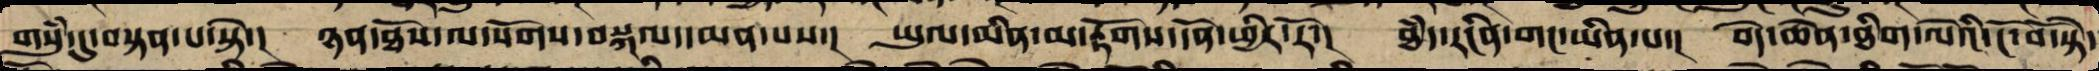གསུཾ་དུ་བསྟན་པ་སྟེ་། ཉན་ཐོས་ལ་སོགས་བསྐལ་དམན་པས་། ཡུལ་མིན་མ་རྟོགས་དོན་ཕྱིར་རོ་། ཐཾད་རང་བཞིན་གང་ཡིན་པ་། བདེ་ཆེན་ཐིག་ལེའི་ངོ་བོ་སྟེ་
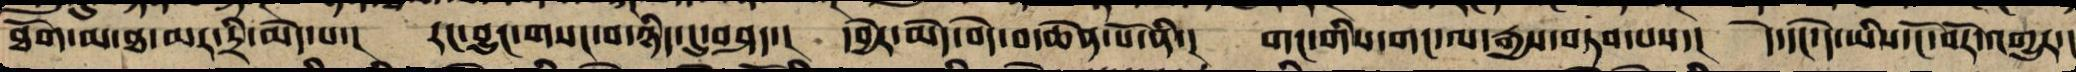ཐོག་མ་ཐ་མར་དྲི་མེད་པ་། རང་བྱུང་གསང་བ་ཉིད་དུ་བཤད་། དབྱེར་མེད་བདེ་བ་ཆེན་པོ་ནི་། གང་གིས་གང་ལ་རྒྱས་བཏབ་པ་། དེ་དང་དེ་ཡི་ངོ་བོར་འགྱུར་།
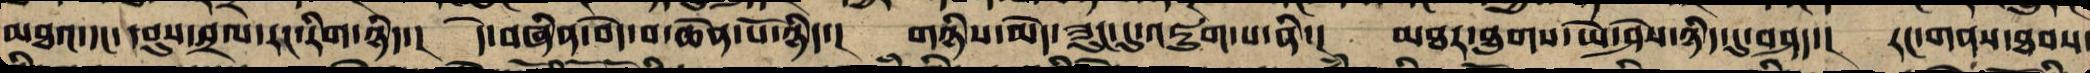མཐའ་དང་དབུས་བྲལ་རང་རིག་ཉིད་། དེ་བཞིན་བདེ་བ་ཆེན་པོ་ཉིད་། གཉིས་མེད་ཟུང་དུ་འཇུག་པ་ནི་། མཐར་ཐུག་ཡེ་ཤེས་ཉིད་དུ་བཤད་། རང་གནས་ཐབས་
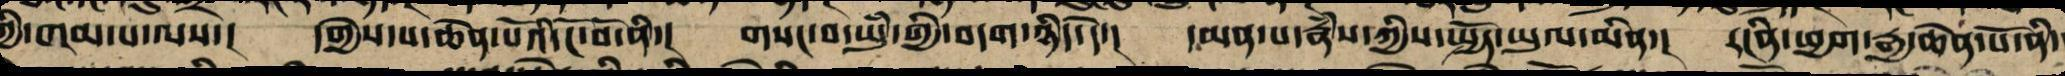ཀྱིས་གམ་པ་ལས་། དགྱེས་པ་ཆེན་པོའི་ངོ་བོ་ནི་། གསང་བ་ཡུཾ་གྱི་བདག་ཉིད་དེ་། དམན་པ་རྣཾས་ཀྱི་སྤྱོད་ཡུལ་མིན་། རངིན་ཕྱག་རྒྱ་ཆེན་པོ་ནི་
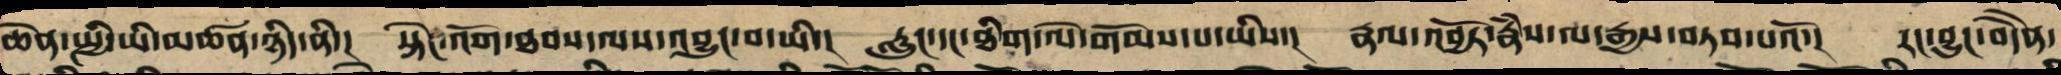ཆེན་སྤྱི་ཡི་མཚན་ཉིད་ནི་། སྟེང་འོག་ཐབས་ལས་འབྱུང་བ་ཡི་། རླུང་དང་ཐིག་ལེ་གོམས་པ་ཡིས་། རྣལ་འབྱོར་རྣཾས་ལ་རྒྱས་བཏབ་པའོ་། རང་བྱུང་བདཻན་
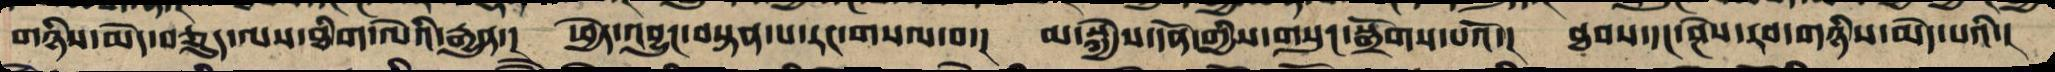གཉིས་མེད་བཅུད་ལས་ཐིག་ལེའི་རྒྱུན་། ཕྱེད་འབྱུང་བརྟན་པར་རང་གསལ་བ་། མ་སྐྱེས་དོན་གྱི་གསུང་སྒྲོགས་པའོ་། ཐབས་དང་ཤེས་རབ་གཉིས་མེད་པའི་།
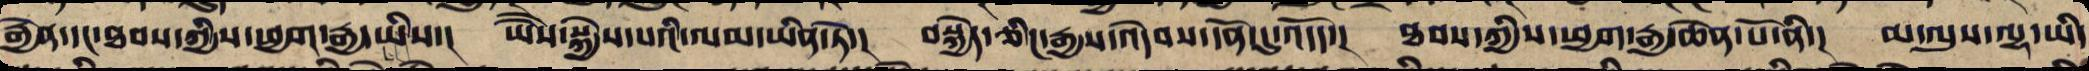རྐྱེན་དང་ཐབས་ཀྱི་ཕྱག་རྒྱ་ཡིས་། ཡཻས་སྐྱེས་པའི་ལམ་ཡིན་ཏེ་། བསྐྱེད་ཅིང་རྒྱས་འདེབས་དོན་དུ་འདོད་། ཐབས་ཀྱི་ཕྱག་རྒྱ་ཆེན་པོ་ནི་། མ་ལུས་ལྷ་ཡི་
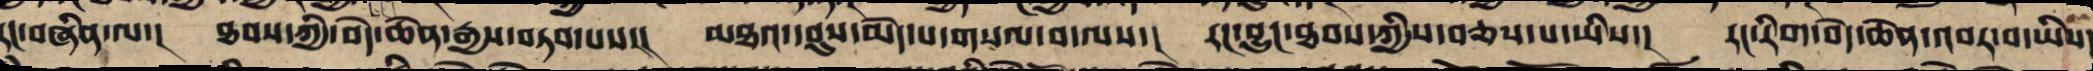རང་བཞིན་ལ་། ཐབས་ཀྱི་བདེ་ཆེན་རྒྱས་བཏབ་པས་། མཐའ་དབུས་མེད་པར་གསལ་བ་ལས་། རང་བྱུང་ཐབས་དང་བཅས་པ་ཡིས་། རང་རིག་བདེ་ཆེན་འབར་བ་ཡིས་
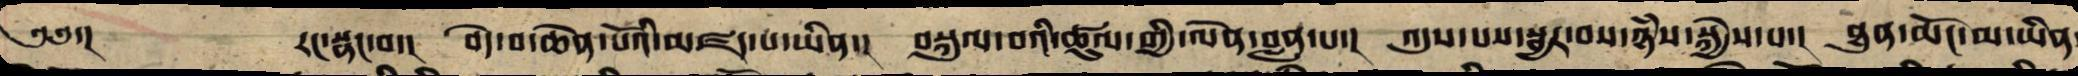༄༅་། རང་སྣང་བ་། བདེ་བ་ཆེན་པོའི་མཛད་པ་ཡིན་། བསྐུལ་བའི་ཚུལ་གྱིས་ལན་བླན་པ་། འདུས་པས་སྦྱར་བས་ཉཾས་སྐྱེས་པ་། ཐུན་མོང་མ་ཡིན
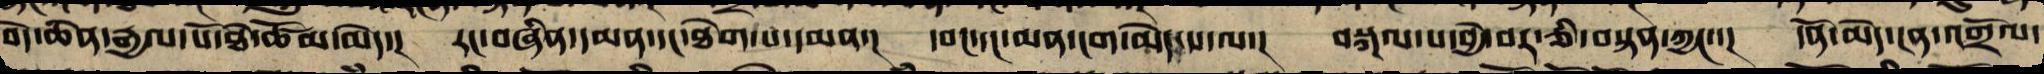བདེ་ཆེན་འབྲས་བུ་ཐེ་ཚོམ་མེད་། རང་བཞིན་དམན་དང་ཐེག་པ་དམན་། དབང་དང་མན་ངག་མེད་པ་ལ་། བསྐལ་པ་བྱེ་བར་ཅི་བསྟན་ཀྱང་་། དོན་མེད་ངན་འགྲོལ་
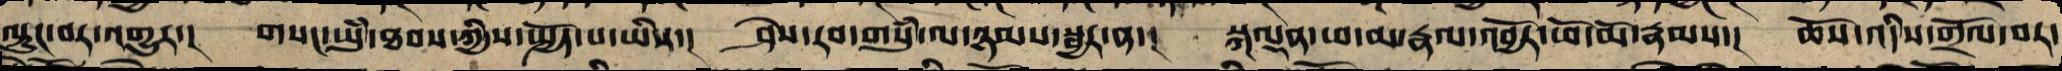ལྟུང་བར་འགྱུར་། གསང་ཡུཾ་ཐབས་ཀྱི་སྤྱོད་པ་ཡིས་། ཤེས་རབ་གསུཾ་ལ་ཉམས་སྦྱར་ན་། སྐལྡན་རྣལ་འབྱོར་ཕོ་མོ་རྣམས་། ཆོས་འདིས་གྲོལ་བར་
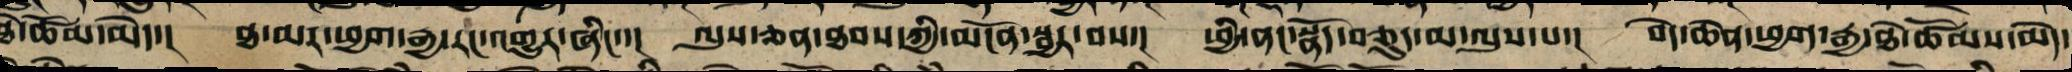ཐེ་ཚོམ་མེད་། ཐ་མལ་ཕྱག་རྒྱ་རང་འགྱུར་ཞིང་་། ལུས་ཅན་ཐབས་ཀྱིས་མངོན་སྦྱར་བས་། ཕྱི་ནང་སྣོད་བཅུད་མ་ལུས་པ་། བདེ་ཆེན་ཕྱག་རྒྱར་ཐེ་ཚོམ་མེད་
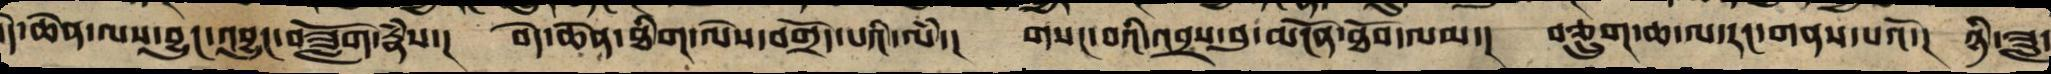བདེ་ཆེན་ལས་བྱུང་འབྱུང་བཟློག་རྣཾས། བདེ་ཆེན་ཐིག་ལེས་བགྲོད་པའི་ལཾ་། གསང་བའི་འབྲས་བུ་མངོན་ཐོབ་ལམ་། བཅྲུག་ཆ་ལ་རང་གནས་པའོ་། ཉི་ཟླ་
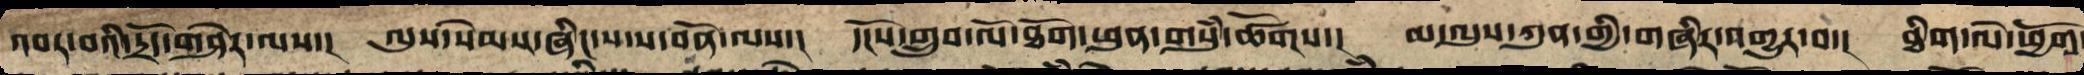འབར་བའི་དྲོད་གཤེར་ལས་། ལུས་སེམས་ཞིང་ས་ས་བོན་ལས་། དངོས་གྲུབ་ལོ་ཐོག་ཕུན་སུཾ་ཚོགས་། མ་ལུས་ཀུན་གྱི་གཞིར་འགྱུར་བ་། ཐིག་ལེས་ཕྱོགས
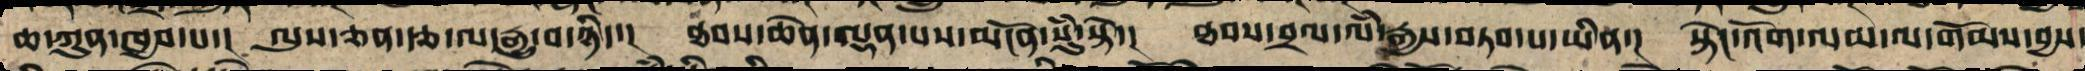ཆ་ཀུན་ཁྱབ་པ་། ལུས་ཅན་རྩ་ལ་རྒྱུ་བ་ཉིད་། ཐབས་ཆེན་ལྡན་པས་མངོན་སུཾ་སྟེ་། ཐབས་བྲལ་ལཾ་རྒྱས་བཏབ་པ་ཡིན་། སྟེང་འོག་ལམ་ལ་གོམས་བྱས་
